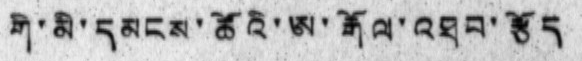གི་མི་དམངས་ཚོའི་ཨ་རྒོལ་འཐབ་རྩོད
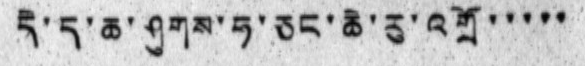དེ་ད་ཆ་ཤུགས་ཧ་ཅང་ཆེ་རུ་འགྲོ་་་་་
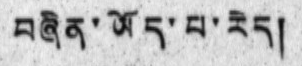བཞིན་ཡོད་པ་རེད།
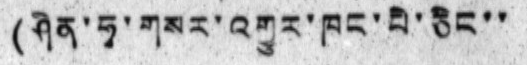(ཤིན་ཧྭ་གསར་འགྱུར་ཁང་པི་ཅིང་་
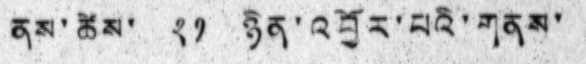ནས་ཚེས་ ༢༡ ཉིན་འབྱོར་པའི་གནས་
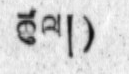ཚུལ། )
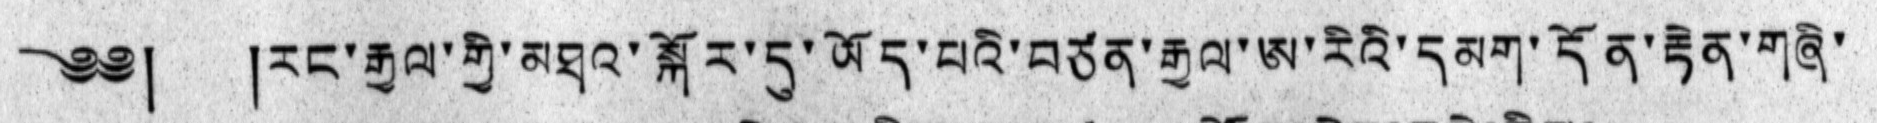༄༅། །རང་རྒྱལ་གྱི་མཐའ་སྐོར་དུ་ཡོད་པའི་བཙན་རྒྱལ་ཨ་རིའི་དམག་དོན་རྟེན་གཞི་
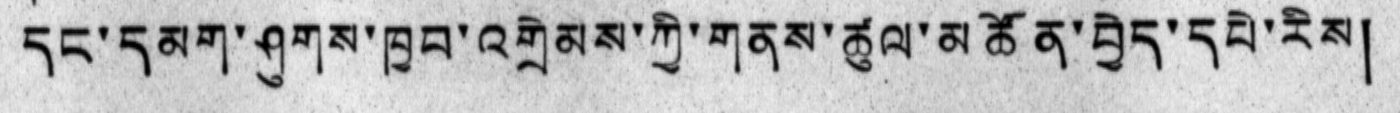དང་དམག་ཤུགས་ཁྱབ་འགྲེམས་ཀྱི་གནས་ཚུལ་མཚོན་བྱེད་དཔེ་རིས།
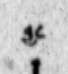བྱང
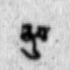ནུབ
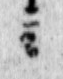ལྷོ
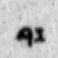ཤར
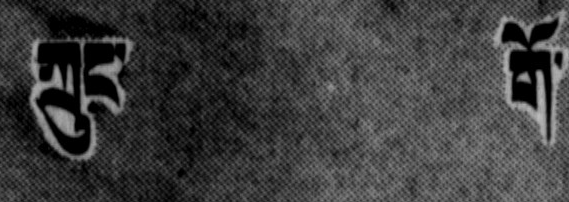ཀྲུང་ གོ་
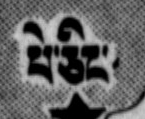པེ་ཅིང་
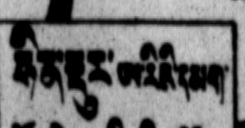ཧིན་རྡུར་ཨ་རིའི་རམག་
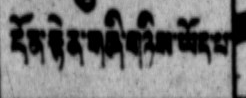དོན་རྟེན་གཞི་གཉིས་ཡོད་པ་
